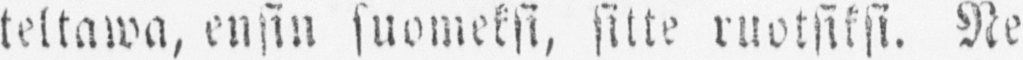teltawa, ensin suomeksi, sitte ruotsiksi. Ne
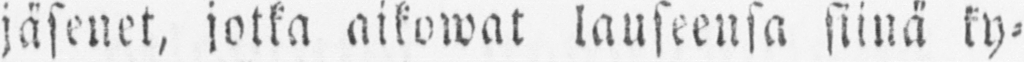jäsenet, jotka aikowat lauseensa siinä ky-
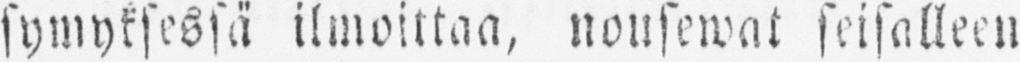symyksessä ilmoittaa, nousewat seisalleen
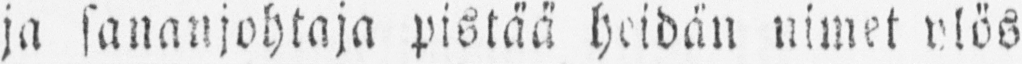ja sananjohtaja pistää heidän nimet ylös
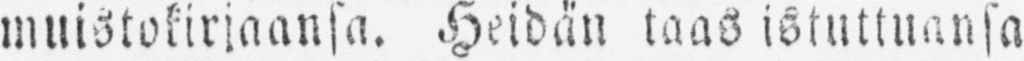muistokirjaansa. Heidän taas istuttuansa
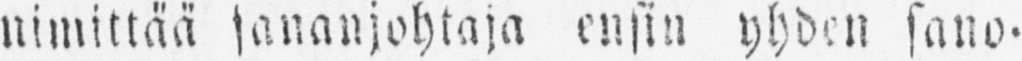nimittää sananjohtaja ensin yhden sano-
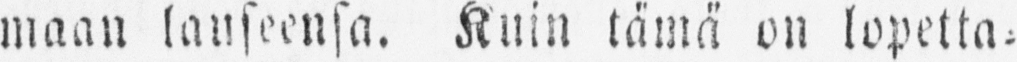maan lauseensa. Kuin tämä on lopetta-
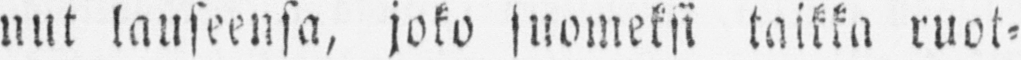nut lauseensa, joko suomeksi taikka ruot-
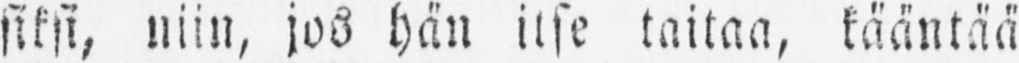siksi, niin, jos hän itse taitaa, kääntää
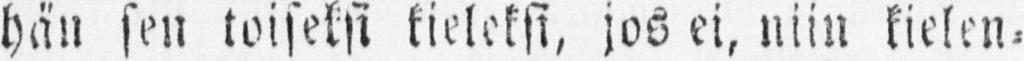hän sen toiseksi kieleksi, jos ei, niin kielen-
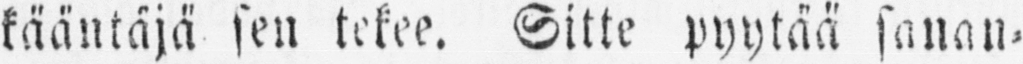kääntäjä sen tekee. Sitte pyytää sanan-
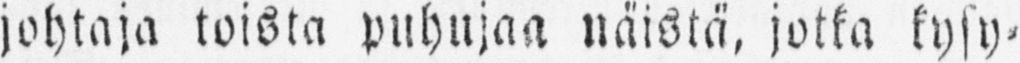johtaja toista puhujaa näistä, jotka kysy-
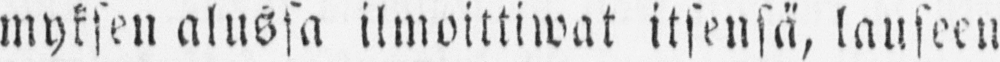myksen alussa ilmoittiwat itsensä, lauseen-
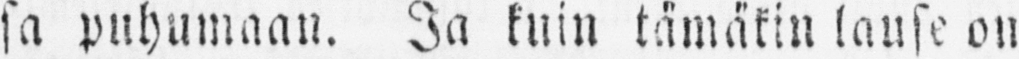sa puhumaan. Ja kuin tämäkin lause on
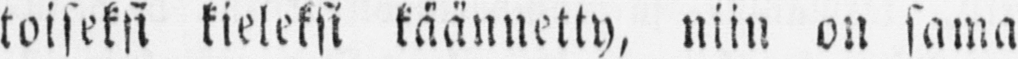toiseksi kieleksi käännetty, niin on sama
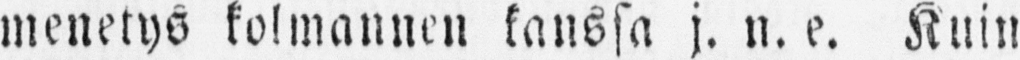menetys kolmannen kanssa j. n. e. Kuin
